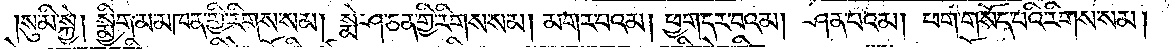སུ་མི་སྐྱེ། སྨྱིག་མ་མཁན་གྱི་རིགས་སམ། སྨེ་ཤ་ཅན་གྱི་རིགས་སམ། མགར་བའམ། ཕྱག་དར་བའམ། ཤེན་པའམ། ཕག་གསོད་པའི་རིགས་སམ།
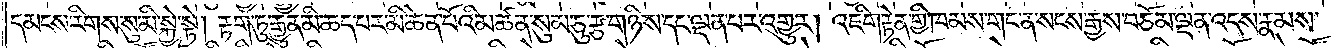དམངས་རིགས་སུ་མི་སྐྱེ་སྟེ། རྟག་ཏུ་རྒྱུན་མི་ཆད་པར་མི་ཆེན་པོའི་མཚན་སུམ་ཅུ་རྩ་གཉིས་དང་ལྡན་པར་འགྱུར། འཇིག་རྟེན་གྱི་ཁམས་གང་ན་སངས་རྒྱས་བཅོམ་ལྡན་འདས་རྣམས་
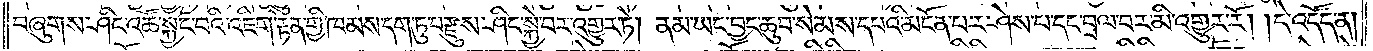བཞུགས་ཤིང་འཚོ་སྐྱོང་བའི་འཇིག་རྟེན་གྱི་ཁམས་དག་ཏུ་བརྫུས་ཤིང་སྐྱེ་བར་འགྱུར་ཏེ། ནམ་ཡང་བྱང་ཆུབ་སེམས་དཔའི་མངོན་པར་ཤེས་པ་དང་བྲལ་བར་མི་འགྱུར་རོ། དེ་འདོད་ན།
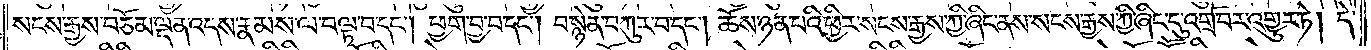སངས་རྒྱས་བཅོམ་ལྡན་འདས་རྣམས་ལ་བལྟ་བ་དང༌། ཕྱག་བྱ་བ་དང༌། བསྙེན་བཀུར་བ་དང༌། ཆོས་ཉན་པའི་ཕྱིར་སངས་རྒྱས་ཀྱི་ཞིང་ནས་སངས་རྒྱས་ཀྱི་ཞིང་དུ་འགྲོ་བར་འགྱུར་ཏེ། དེ་
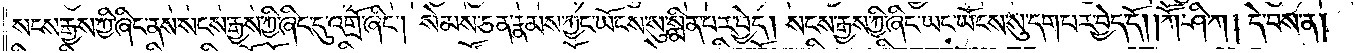སངས་རྒྱས་ཀྱི་ཞིང་ནས་སངས་རྒྱས་ཀྱི་ཞིང་དུ་འགྲོ་ཞིང༌། སེམས་ཅན་རྣམས་ཀྱང་ཡོངས་སུ་སྨིན་པར་བྱེད། སངས་རྒྱས་ཀྱི་ཞིང་ཡང་ཡོངས་སུ་དག་པར་བྱེད་དོ། །ཀཽ་ཤི་ཀ། དེ་བས་ན།
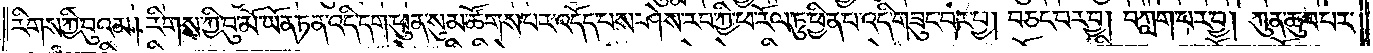རིགས་ཀྱི་བུའམ། རིགས་ཀྱི་བུ་མོ་ཡོན་ཏན་འདི་དག་ཕུན་སུམ་ཚོགས་པར་འདོད་པས་ཤེས་རབ་ཀྱི་ཕ་རོལ་ཏུ་ཕྱིན་པ་འདི་གཟུང་བར་བྱ། བཅང་བར་བྱ། བཀླག་པར་བྱ། ཀུན་ཆུབ་པར་
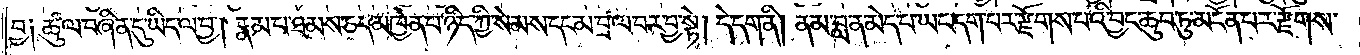བྱ༑ཚུལ་བཞིན་དུ་ཡིད་ལ་བྱ། རྣམ་པ་ཐམས་ཅད་མཁྱེན་པ་ཉིད་ཀྱི་སེམས་དང་མ་བྲལ་བར་བྱ་སྟེ། དེ་དག་ནི། ནམ་བླ་ན་མེད་པ་ཡང་དག་པར་རྫོགས་པའི་བྱང་ཆུབ་ཏུ་མངོན་པར་རྫོགས་
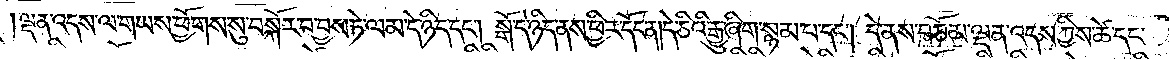ལྡན་འདས་ལ་གཡས་ཕྱོགས་སུ་བསྐོར་བ་བྱས་ཏེ། ལམ་དེ་ཉིད་དང༌། སྒོ་དེ་ཉིད་ནས་ཕྱིར་དོང་ན།དེ་ཅིའི་རྒྱུ་ཞིག་སྙམ་པ་དང༌། དེ་ནས་བཅོམ་ལྡན་འདས་ཀྱིས་ཚེ་དང་
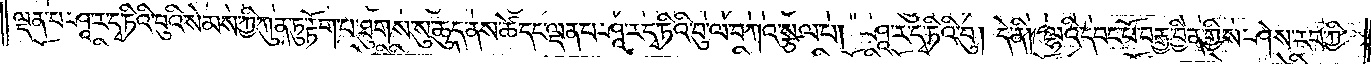ལྡན་པ་ཤཱ་ར་དྭ་ཏིའི་བུའི་སེམས་ཀྱི་ཀུན་ཏུ་རྟོག་པ་ཐུགས་སུ་ཆུད་ནས་ཚེ་དང་ལྡན་པ་ཤཱ་ར་དྭ་ཏིའི་བུ་ལ་བཀའ་སྩལ་པ། ཤཱ་ར་དྭ་ཏིའི་བུ། དེ་ནི། ལྷའི་དབང་པོ་བརྒྱ་བྱིན་གྱིས་ཤེས་རབ་ཀྱི་
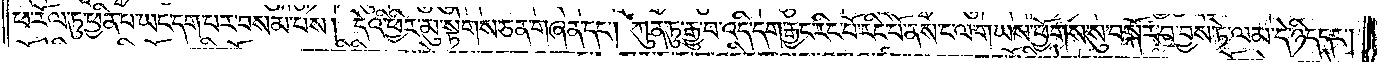ཕ་རོལ་ཏུ་ཕྱིན་པ་ཡང་དག་པར་བསམས་པས། དེའི་ཕྱིར་མུ་སྟེགས་ཅན་གཞན་དང༌། ཀུན་ཏུ་རྒྱུ་བ་འདི་དག་རྒྱང་རིང་པོ་རིང་པོ་ནས་ང་ལ་གཡས་ཕྱོགས་སུ་བསྐོར་བ་བྱས་ཏེ་ལམ་དེ་ཉིད་དང༌།
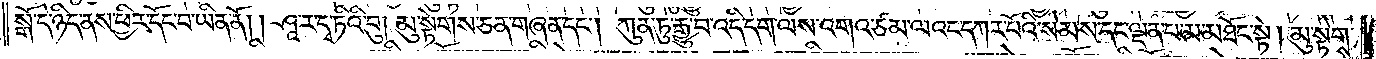སྒོ་དེ་ཉིད་ནས་ཕྱིར་དོང་བ་ཡིན་ནོ། །ཤཱ་ར་དྭ་ཏིའི་བུ། མུ་སྟེགས་ཅན་གཞན་དང༌། ཀུན་ཏུ་རྒྱུ་བ་འདི་དག་ལས་འགའ་ཙམ་ལའང་དཀར་པོའི་སེམས་དང་ལྡན་པ་མ་མཐོང་སྟེ། མུ་སྟེགས་
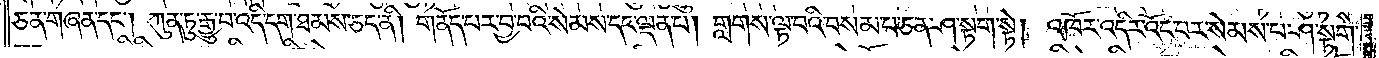ཅན་གཞན་དང༌། ཀུན་ཏུ་རྒྱུ་བ་འདི་དག་ཐམས་ཅད་ནི། གནོད་པར་བྱ་བའི་སེམས་དང་ལྡན་པ། གླགས་ལྟ་བའི་བསམ་པ་ཅན་ཤ་སྟག་སྟེ། འཁོར་འདིར་འོང་བར་སེམས་པ་ཤ་སྟག་
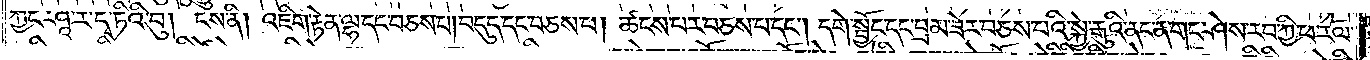ཀྱང་ཤཱ་ར་དྭ་ཏིའི་བུ། ངས་ནི། འཇིག་རྟེན་ལྷ་དང་བཅས་པ། བདུད་དང་བཅས་པ། ཚངས་པར་བཅས་པ་དང༌། དགེ་སྦྱོང་དང་བྲམ་ཟེར་བཅས་པའི་སྐྱེ་རྒུའི་ནང་ན་གང་ཤེས་རབ་ཀྱི་ཕ་རོལ་
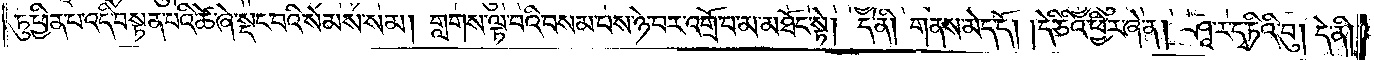ཏུ་ཕྱིན་པ་འདི་བསྟན་པའི་ཚེ་ཞེ་སྡང་བའི་སེམས་སམ། གླགས་ལྟ་བའི་བསམ་པས་ཉེ་བར་འགྲོ་བ་མ་མཐོང་སྟེ། དེ་ནི། གནས་མེད་དོ། །དེ་ཅིའི་ཕྱིར་ཞེ་ན། ཤཱ་ར་དྭ་ཏིའི་བུ། དེ་ནི།
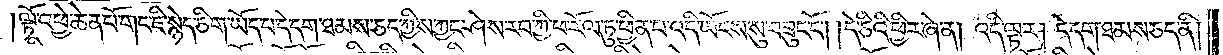ལྟོ་འཕྱེ་ཆེན་པོ་གང་ཇི་སྙེད་ཅིག་ཡོད་པ་དེ་དག་ཐམས་ཅད་ཀྱིས་ཀྱང་ཤེས་རབ་ཀྱི་ཕ་རོལ་ཏུ་ཕྱིན་པ་འདི་ཡོངས་སུ་བཟུང་ངོ༌། །དེ་ཅིའི་ཕྱིར་ཞེ་ན། འདི་ལྟར། དེ་དག་ཐམས་ཅད་ནི།
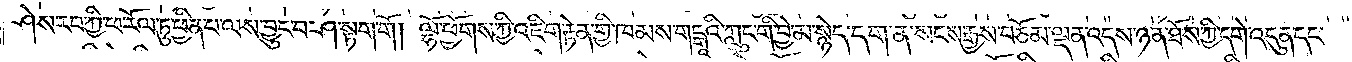ཤེས་རབ་ཀྱི་ཕ་རོལ་ཏུ་ཕྱིན་པ་ལས་བྱུང་བ་ཤ་སྟག་གོ །ལྷོ་ཕྱོགས་ཀྱི་འཇིག་རྟེན་གྱི་ཁམས་གངྒཱའི་ཀླུང་གི་བྱེ་མ་སྙེད་དག་ན་སངས་རྒྱས་བཅོམ་ལྡན་འདས་ཉན་ཐོས་ཀྱི་དགེ་འདུན་དང་
